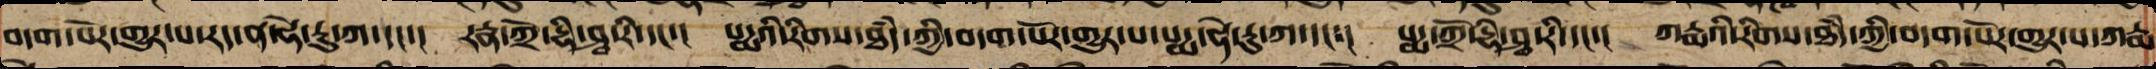བདག་པོར་གྱུར་པ་རཏྣ་ཧེ་རུ་ཀ་དང་། རཏྣ་ཀྲོ་དྷཱི་ཤྭ་རི་དང་། པདྨའི་རིགས་ཐཾད་ཀྱི་བདག་པོར་གྱུར་པ་པདྨ་ཧེ་རུ་ཀ་དང་། པདྨ་ཀྲོ་དྷཱི་ཤཱ་རི་དང་། ཀརྨའི་རིགས་ཐཾད་ཀྱི་བདག་པོར་གྱུར་པ་ཀརྨ
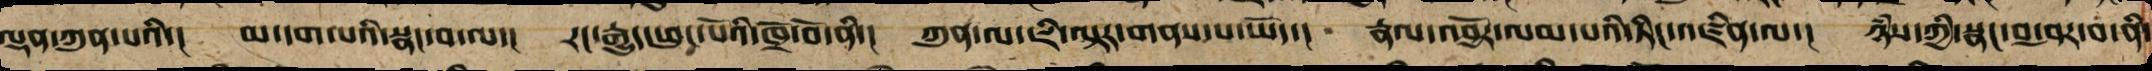ལྡན་ཀུན་པའི།  མ་དག་པའི་སྣང་བ་ལ།  རང་རྒྱུད་ཕུང་པོའི་ཁྲོ་བོ་ནི།  ཀུན་ལ་ཇི་ལྟར་གནས་པ་ཡོད་།  རྣལ་འབྱོར་ལམ་པའི་ཏིང་འཛིན་ལ་།  ཉཾས་ཀྱི་སྣང་བ་ཤར་བ་ནི་
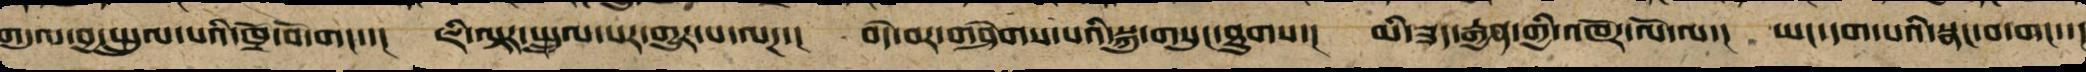གདུལ་བྱ་སྤྲུལ་པའི་ཁྲོ་བོ་གང་་།  ཇི་ལྟར་སྤྲུལ་པར་གྱུར་པ་ལཌ་།  བདེ་བར་གཤེགས་པའི་སྐུ་གསུང་ཐུགས་།  མི་ཟད་རྒྱན་གྱི་འཁོར་ལོ་ལ་།  ཡང་དག་པའི་སྣང་བ་གང་་
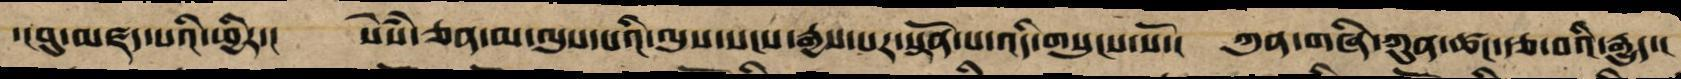་།བུ་མཛད་པའི་ཕྱིར་།  སེཾས་ཅན་མ་ལུས་པའི་ལུས་སངས་རྒྱས་པར་སྟོན་པ་འདི་གསུངས་སོ་།  ཀུན་གཞི་ཀུན་ཚང་རྩ་བའི་རྒྱུད།
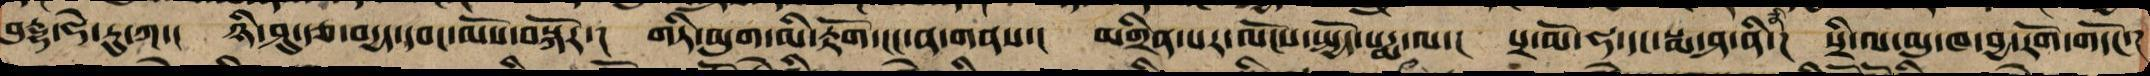བུརྡྷ་ཧེ་རུ་ཀ་།  ཉི་ཤུ་རྩ་བདྱད་དབང་མོས་བསྐོར་།  གཏི་མུག་མི་རྟོག་ངང་ན་གནས་།  མགྲིན་པར་ལོངས་སྤྱོད་པདྨ་ལ་།  པྲ་མོ་ཧ་དང་སྨ་ཤ་ནི་།  སྲི་ལ་མུ་ཁ་བྱ་རོག་གདོང་།
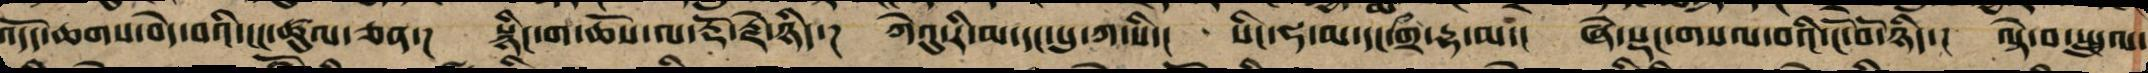འདོད་ཆགས་བདེ་བའི་ངང་ཚུལ་ཅན་། སྙིང་ག་ཆོས་ལ་རྡོ་རྗེ་ཉིད། ཀེའུ་རི་མ་དང་པུ་ཀ་སི་།  སིང་ཧ་མ་དང་གྲྀ་ཌྷ་མ་། ཞེ་སྡང་གསལ་བའི་ངོ་བོ་ཉིད་། ལྟེ་བ་སྤྲུལ་
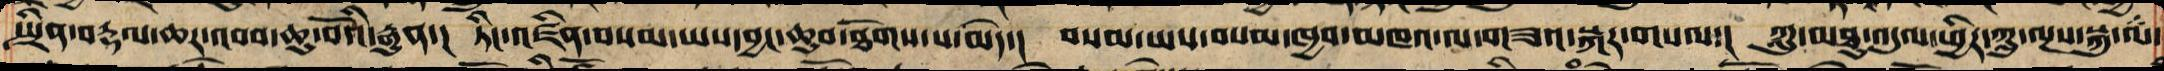སྤྲིན་བརྡལ་ཆར་འབབ་ཆུ་བོའི་རྒྱུན་།  ཏིང་འཛིན་བསམ་ཡས་བྱང་ཆུབ་ཐོགས་པ་མེད་།  བསམ་ཡས་བསམ་ཁྱབ་མཁའ་ལ་གཟའ་སྐར་གསལ་།  ཀླུ་མཐུ་འདུལ་ཕྱིར་ཀླུ་ལྔས་སྐུ་ལ་
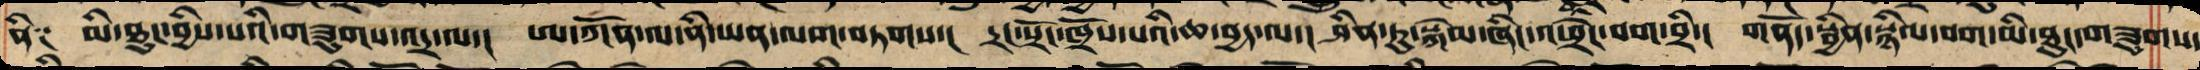ནི༑  མི་ཐུང་བྱིས་པའི་གཟུགས་འདྲ་ལ་།  ཨ་ཀོན་ལ་ནི་ཡན་ལག་བཏགས་།  དྲང་སྲོང་ཁྲོས་པའི་ཆ་བྱད་ལ་།  ཤིན་ཏུ་སྐེམ་ཞིང་འཕྲེང་བག་བྲི་།  གནོད་སྦྱིན་སྙིལ་བག་མི་ཐུང་གཟུགས་
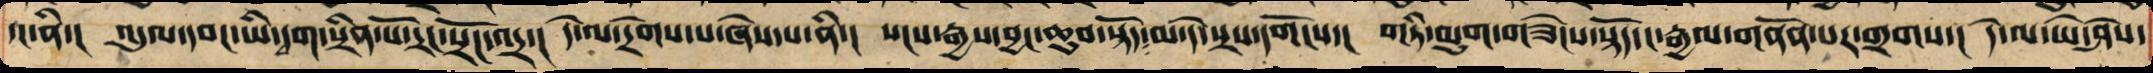དང་ནི་།  འདུལ་དབང་ཡི་དྭག་སྲིན་པོ་དྲང་སྲོང་འདྲ་།  དེ་ལ་དྲེགས་པ་ཞེས་པ་ནི་།  སངས་རྒྱས་བྱང་ཆུབ་སྟོད་མ་དེ་སྲས་དགོངས་། གཏི་མུག་གཟེངས་སྟོད་ང་རྒྱལ་གནོན་པར་གྲགས་།  དེ་ལ་ཡེ་ཤེས་
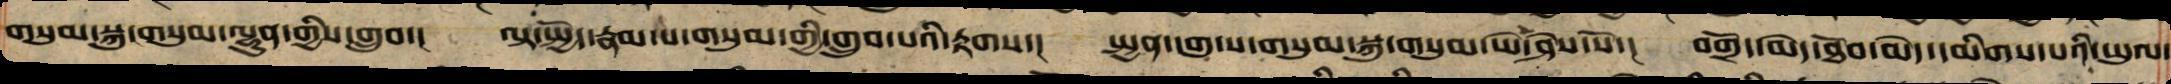གསུམ་སྐུ་གསུམ་ལྷུན་གྱིས་གྲུབ་།  ལྟ་སྤྱོད་རྣམ་པ་གསུམ་གྱི་གྲུབ་པའི་རྟགས་།  སྤྱན་དགུ་ས་གསུམ་སྐུ་གསུམ་ཡེ་ཤེས་སོ་།  བགྲོད་མེད་ཐོབ་མེད་དམིགས་པའི་ཡུལ་
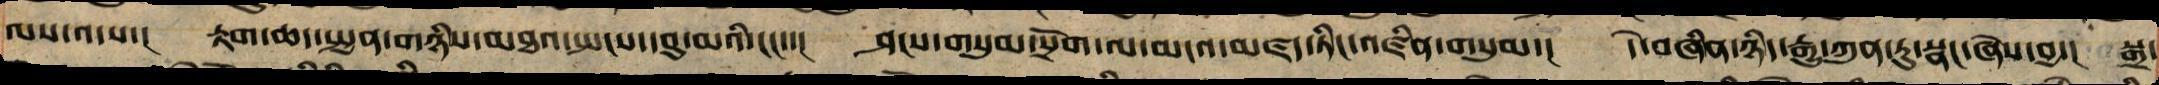ལས་འདས་། རྟག་ཆད་སྤྱན་གཉིས་མཐའ་སྤངས་དབུ་མའི་ངང་་། ཤངས་གསུམ་སྲོག་ལ་མངའ་མཛད་ཏིང་འཛིན་གསུམ་།  དེ་བཞིན་ཉིད་རྒྱུ་ཀུན་ཏུ་སྣང་ཞེས་བྱ་།  སྒྲ་
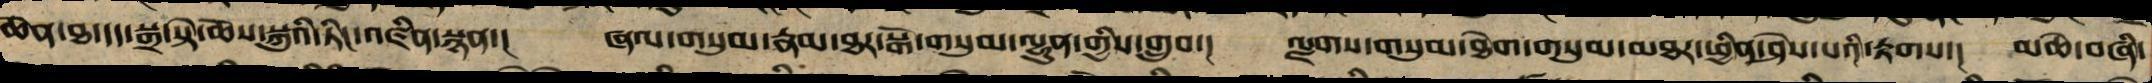ཆེན་ཐ་དད་སྒྲ་སྟེ་ཆོས་སྐུ་ཏིང་འཛིན་སྙན་།  ཞལ་གསུམ་རྣམ་ཐར་སྒོ་གསུམ་ལྷུན་གྱིས་གྲུབ་།  ལྗགས་གསུམ་ཐེག་གསུམ་མཐར་ཕྱིན་ཤེས་པའི་རྟགས་།  མཆེ་བཞི་
